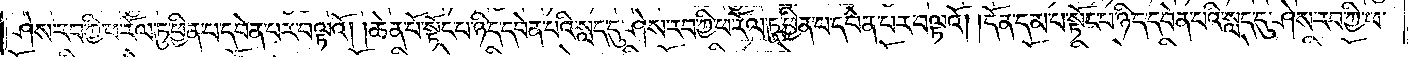ཤེས་རབ་ཀྱི་ཕ་རོལ་ཏུ་ཕྱིན་པ་དབེན་པར་བལྟའོ། །ཆེན་པོ་སྟོང་པ་ཉིད་དབེན་པའི་སླད་དུ་ཤེས་རབ་ཀྱི་ཕ་རོལ་ཏུ་ཕྱིན་པ་དབེན་པར་བལྟའོ། །དོན་དམ་པ་སྟོང་པ་ཉིད་དབེན་པའི་སླད་དུ་ཤེས་རབ་ཀྱི་ཕ་
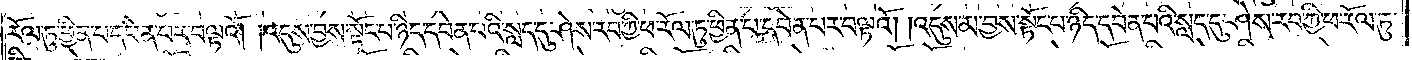རོལ་ཏུ་ཕྱིན་པ་དབེན་པར་བལྟའོ། །འདུས་བྱས་སྟོང་པ་ཉིད་དབེན་པའི་སླད་དུ་ཤེས་རབ་ཀྱི་ཕ་རོལ་ཏུ་ཕྱིན་པ་དབེན་པར་བལྟའོ། །འདུས་མ་བྱས་སྟོང་པ་ཉིད་དབེན་པའི་སླད་དུ་ཤེས་རབ་ཀྱི་ཕ་རོལ་ཏུ་
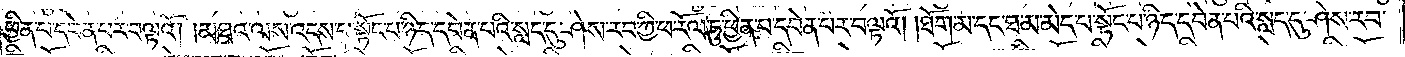ཕྱིན་པ་དབེན་པར་བལྟའོ། །མཐའ་ལས་འདས་པ་སྟོང་པ་ཉིད་དབེན་པའི་སླད་དུ་ཤེས་རབ་ཀྱི་ཕ་རོལ་ཏུ་ཕྱིན་པ་དབེན་པར་བལྟའོ། །ཐོག་མ་དང་ཐ་མ་མེད་པ་སྟོང་པ་ཉིད་དབེན་པའི་སླད་དུ་ཤེས་རབ་
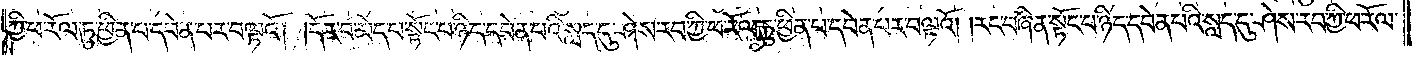ཀྱི་ཕ་རོལ་ཏུ་ཕྱིན་པ་དབེན་པར་བལྟའོ། །དོར་བ་མེད་པ་སྟོང་པ་ཉིད་དབེན་པའི་སླད་དུ་ཤེས་རབ་ཀྱི་ཕ་རོལ་ཏུ་ཕྱིན་པ་དབེན་པར་བལྟའོ། །རང་བཞིན་སྟོང་པ་ཉིད་དབེན་པའི་སླད་དུ་ཤེས་རབ་ཀྱི་ཕ་རོལ་
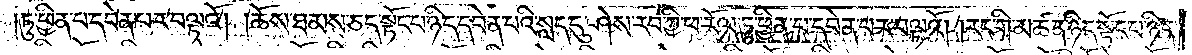ཏུ་ཕྱིན་པ་དབེན་པར་བལྟའོ། །ཆོས་ཐམས་ཅད་སྟོང་པ་ཉིད་དབེན་པའི་སླད་དུ་ཤེས་རབ་ཀྱི་ཕ་རོལ་ཏུ་ཕྱིན་པ་དབེན་པར་བལྟའོ། །རང་གི་མཚན་ཉིད་སྟོང་པ་ཉིད་
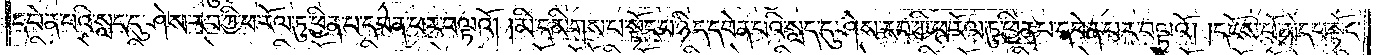དབེན་པའི་སླད་དུ་ཤེས་རབ་ཀྱི་ཕ་རོལ་ཏུ་ཕྱིན་པ་དབེན་པར་བལྟའོ། །མི་དམིགས་པ་སྟོང་པ་ཉིད་དབེན་པའི་སླད་དུ་ཤེས་རབ་ཀྱི་ཕ་རོལ་ཏུ་ཕྱིན་པ་དབེན་པར་བལྟའོ། །དངོས་པོ་མེད་པ་སྟོང་
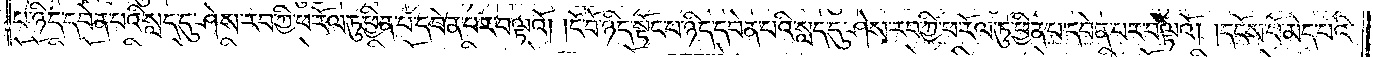པ་ཉིད་དབེན་པའི་སླད་དུ་ཤེས་རབ་ཀྱི་ཕ་རོལ་ཏུ་ཕྱིན་པ་དབེན་པར་བལྟའོ། །ངོ་བོ་ཉིད་སྟོང་པ་ཉིད་དབེན་པའི་སླད་དུ་ཤེས་རབ་ཀྱི་ཕ་རོལ་ཏུ་ཕྱིན་པ་དབེན་པར་བལྟའོ། །དངོས་པོ་མེད་པའི་
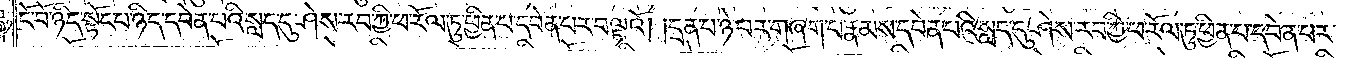ངོ་བོ་ཉིད་སྟོང་པ་ཉིད་དབེན་པའི་སླད་དུ་ཤེས་རབ་ཀྱི་ཕ་རོལ་ཏུ་ཕྱིན་པ་དབེན་པར་བལྟའོ། །དྲན་པ་ཉེ་བར་གཞག་པ་རྣམས་དབེན་པའི་སླད་དུ་ཤེས་རབ་ཀྱི་ཕ་རོལ་ཏུ་ཕྱིན་པ་དབེན་པར་
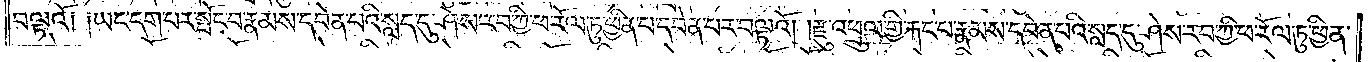བལྟའོ༑ ༑ཡང་དག་པར་སྤོང་བ་རྣམས་དབེན་པའི་སླད་དུ་ཤེས་རབ་ཀྱི་ཕ་རོལ་ཏུ་ཕྱིན་པ་དབེན་པར་བལྟའོ། །རྫུ་འཕྲུལ་གྱི་རྐང་པ་རྣམས་དབེན་པའི་སླད་དུ་ཤེས་རབ་ཀྱི་ཕ་རོལ་ཏུ་ཕྱིན་
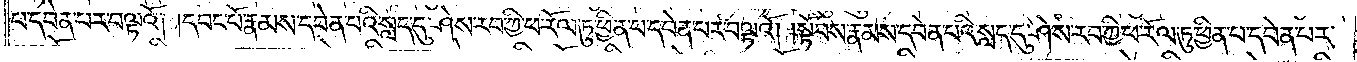པ་དབེན་པར་བལྟའོ། །དབང་པོ་རྣམས་དབེན་པའི་སླད་དུ་ཤེས་རབ་ཀྱི་ཕ་རོལ་ཏུ་ཕྱིན་པ་དབེན་པར་བལྟའོ། །སྟོབས་རྣམས་དབེན་པའི་སླད་དུ་ཤེས་རབ་ཀྱི་ཕ་རོལ་ཏུ་ཕྱིན་པ་དབེན་པར་
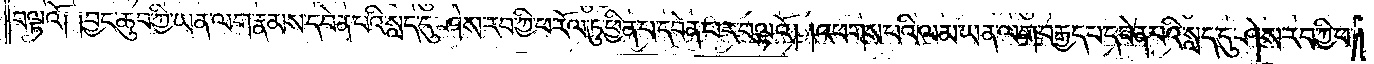བལྟའོ༑ ༑བྱང་ཆུབ་ཀྱི་ཡན་ལག་རྣམས་དབེན་པའི་སླད་དུ་ཤེས་རབ་ཀྱི་ཕ་རོལ་ཏུ་ཕྱིན་པ་དབེན་པར་བལྟའོ། །འཕགས་པའི་ལམ་ཡན་ལག་བརྒྱད་པ་དབེན་པའི་སླད་དུ་ཤེས་རབ་ཀྱི་ཕ་
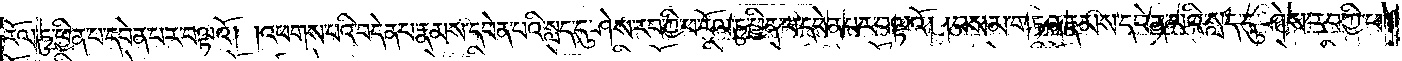རོལ་ཏུ་ཕྱིན་པ་དབེན་པར་བལྟའོ། །འཕགས་པའི་བདེན་པ་རྣམས་དབེན་པའི་སླད་དུ་ཤེས་རབ་ཀྱི་ཕ་རོལ་ཏུ་ཕྱིན་པ་དབེན་པར་བལྟའོ། །བསམ་གཏན་རྣམས་དབེན་པའི་སླད་དུ་ཤེས་རབ་ཀྱི་ཕ་
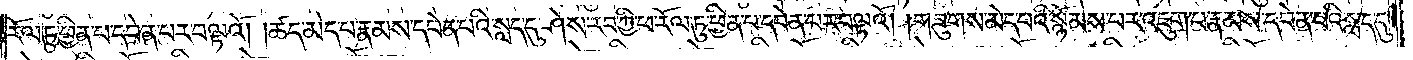རོལ་ཏུ་ཕྱིན་པ་དབེན་པར་བལྟའོ། །ཚད་མེད་པ་རྣམས་དབེན་པའི་སླད་དུ་ཤེས་རབ་ཀྱི་ཕ་རོལ་ཏུ་ཕྱིན་པ་དབེན་པར་བལྟའོ། །གཟུགས་མེད་པའི་སྙོམས་པར་འཇུག་པ་རྣམས་དབེན་པའི་སླད་དུ་
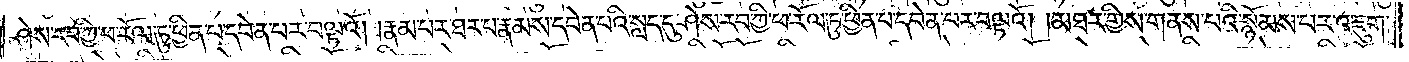ཤེས་རབ་ཀྱི་ཕ་རོལ་ཏུ་ཕྱིན་པ་དབེན་པར་བལྟའོ། །རྣམ་པར་ཐར་པ་རྣམས་དབེན་པའི་སླད་དུ་ཤེས་རབ་ཀྱི་ཕ་རོལ་ཏུ་ཕྱིན་པ་དབེན་པར་བལྟའོ། །མཐར་གྱིས་གནས་པའི་སྙོམས་པར་འཇུག་
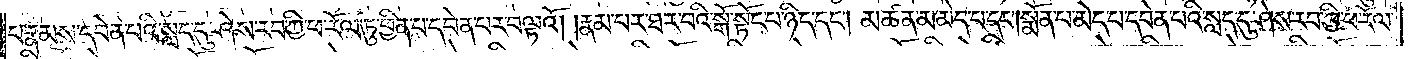པ་རྣམས་དབེན་པའི་སླད་དུ་ཤེས་རབ་ཀྱི་ཕ་རོལ་ཏུ་ཕྱིན་པ་དབེན་པར་བལྟའོ། །རྣམ་པར་ཐར་པའི་སྒོ་སྟོང་པ་ཉིད་དང༌། མཚན་མ་མེད་པ་དང༌། སྨོན་པ་མེད་པ་དབེན་པའི་སླད་དུ་ཤེས་རབ་ཀྱི་ཕ་རོལ་
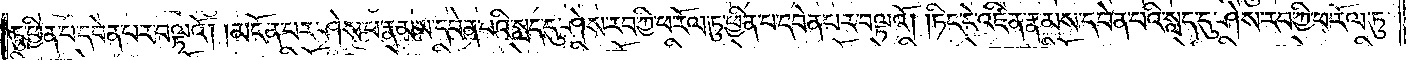ཏུ་ཕྱིན་པ་དབེན་པར་བལྟའོ། །མངོན་པར་ཤེས་པ་རྣམས་དབེན་པའི་སླད་དུ་ཤེས་རབ་ཀྱི་ཕ་རོལ་ཏུ་ཕྱིན་པ་དབེན་པར་བལྟའོ། །ཏིང་ངེ་འཛིན་རྣམས་དབེན་པའི་སླད་དུ་ཤེས་རབ་ཀྱི་ཕ་རོལ་ཏུ་
